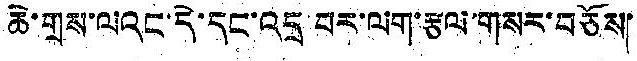ཆེ་གྲས་ལའང་དེ་དང་འདྲ་བར་ལག་རྩལ་གསར་བཅོས་
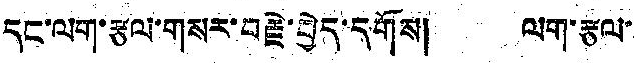དང་ལག་རྩལ་གསར་བརྗེ་བྱེད་དགོས། ལག་རྩལ་
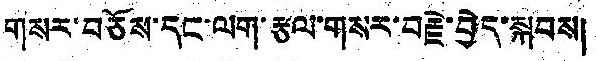གསར་བཅོས་དང་ལག་རྩལ་གསར་བརྗེ་བྱེད་སྐབས།
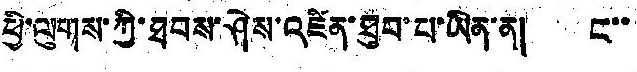ཕྱི་ལུགས་ཀྱི་ཐབས་ཤེས་འཛིན་ཐུབ་པ་ཡིན་ན། ང་་
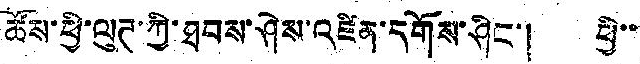ཚོས་ཕྱི་ལུཊ་ཀྱི་ཐབས་ཤེས་འཛིན་དགོས་ཤིང་། ཕྱི་་
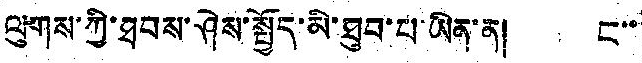ལུགས་ཀྱི་ཐབས་ཤེས་སྤྱོད་མི་ཐུབ་པ་ཡིན་ན། ང་་
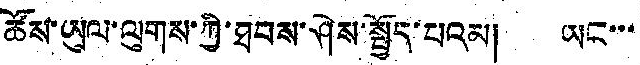ཚོས་ཡུལ་ལུགས་ཀྱི་ཐབས་ཤེས་སྤྱོད་པའམ། ཡང་་་
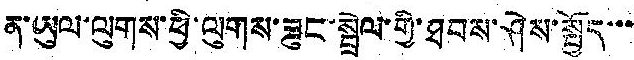ན་ཡུལ་ལུགས་ཕྱི་ལུགས་ཟུང་སྦྲེལ་གྱི་ཐབས་ཤེས་སྤྱོད་་་
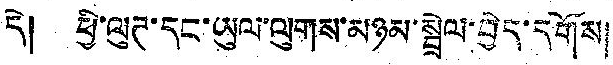དེ། ཕྱི་ལུཊ་དང་ཡུལ་ལུགས་མཉམ་སྦྲེལ་བྱེད་དགོས།
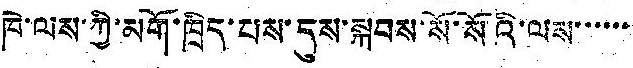ཁེ་ལས་ཀྱི་མགོ་ཁྲིད་པས་དུས་སྐབས་སོ་སོའི་ལས་་་་་་
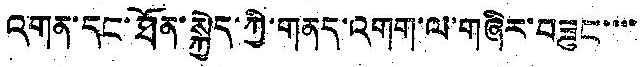འགན་དང་ཐོན་སྐྱེད་ཀྱི་གནད་འགག་ལ་གཞིར་བཟུང་་་་
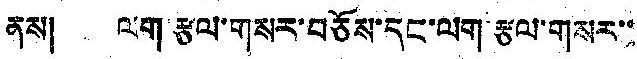ནས། ལག རྩལ་གསར་བཅོས་དང་ལག་རྩལ་གསར་་
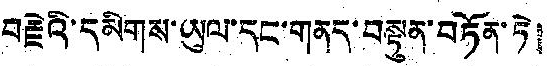བརྗེའི་དམིགས་ཡུལ་དང་གནད་བསྟུན་བཏོན་ཏེ།
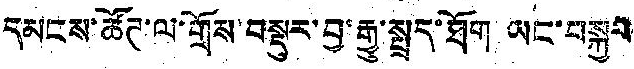དམངས་ཚོཊ་ལ་གྲོས་བསྡུར་བྱ་རྒྱུ་སྤྲད་ཐོག ཡང་བསྐྱར
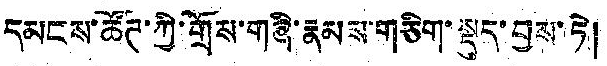དམངས་ཚོཊ་ཀྱི་གྲོས་གཞི་རྣམས་གཅིག་སྡུད་བྱས་ཏེ།
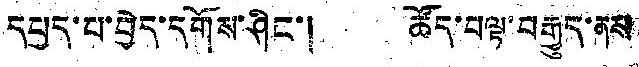དཔྱད་པ་བྱེད་དགོས་ཤིང་། ཚོད་བལྟ་བརྒྱུད་ནས
